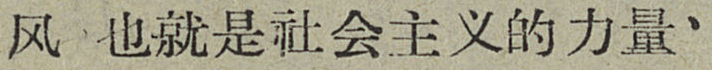风，也就是社会主义的力量、
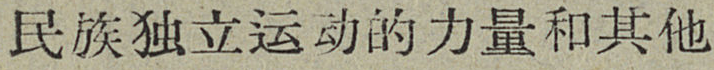民族独立运动的力量和其他
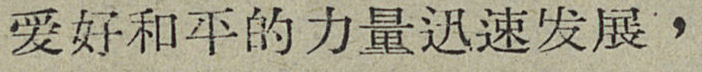爱好和平的力量迅速发展，
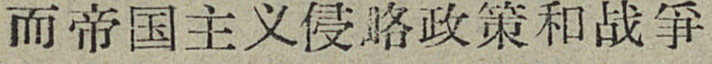而帝国主义侵略政策和战爭
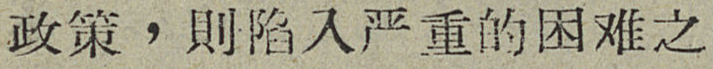政策，則陷入严重的困难之
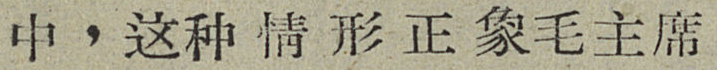中，这种情形正象毛主席
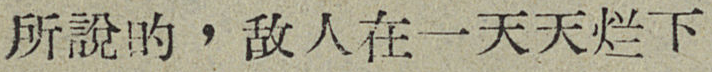所說的，敌人在一天天烂下
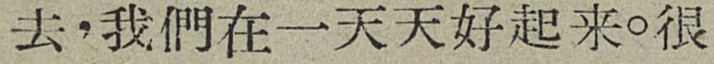去，我們在一天天好起来。很
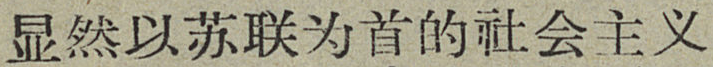显然以苏联为首的社会主义
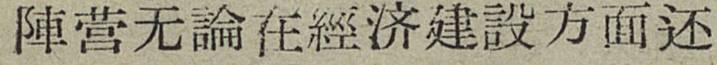陣营无論在經济建設方面还
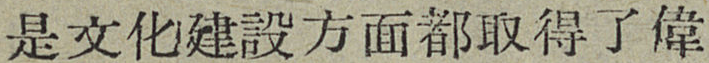是文化建設方面都取得了偉
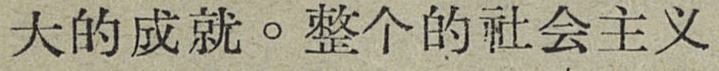大的成就。整个的社会主义
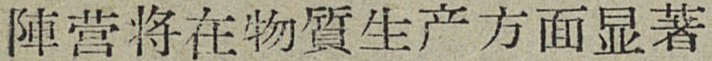陣营将在物質生产方面显著
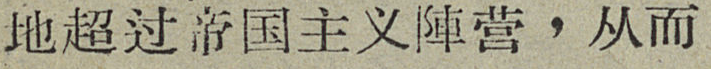地超过帝国主义陣营，从而
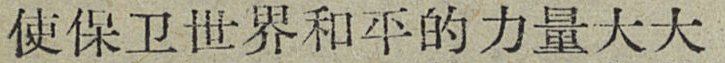使保卫世界和平的力量大大
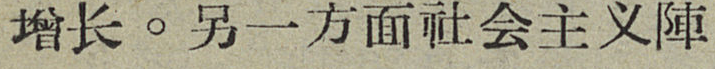增长。另一方面社会主义陣
